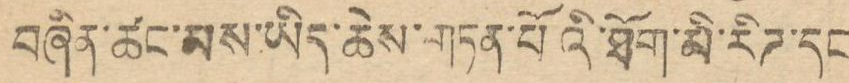བཞིན་ཚང་མས་ཡིད་ཆེས་གཏན་པོའི་ཐོག་མི་རིཊ་དང
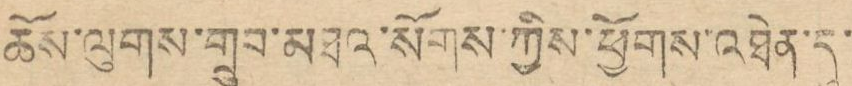ཆོས་ལུགས་གྲུབ་མཐའ་སོགས་ཀྱིས་ཕྱོགས་འཐེན་དུ་
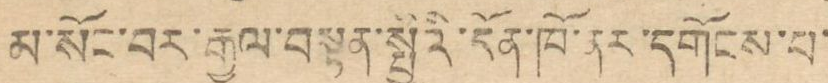མ་སོང་བར་རྒྱལ་བསྟན་སྤྱིའི་དོན་ཁོ་ནར་དགོངས་པ་
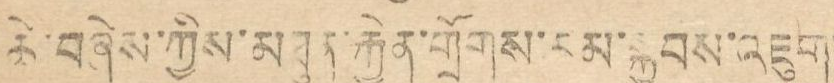ཆེ་བཞེས་ཀྱིས་མཐུན་རྐྱེན་གྲོགས་རམ་སྐྱབས་འཇུག་
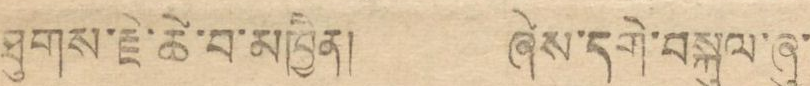ཐུགས་རྗེ་ཆེ་བ་མཁྱེན། ཞེས་དགེ་བསྐུལ་ཞུ་
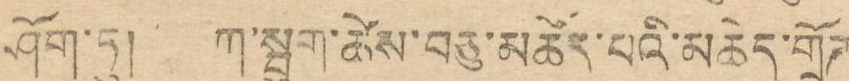ཤོག་ཏུ། ཀ་སྦུག་ཚེས་བཅུ་མཆོད་པའི་མཆེད་གྲོཊ
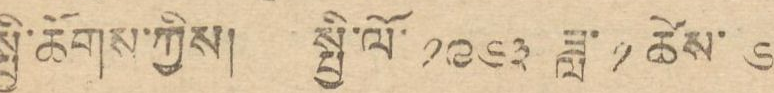སྤྱི་ཚོགས་ཀྱིས། སྤྱི་ལོ ༡༩༦༣ ཟླ་ ༡ ཚེས་ ༦
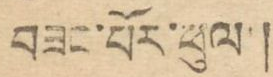བཟང་པོར་ཕུལ།
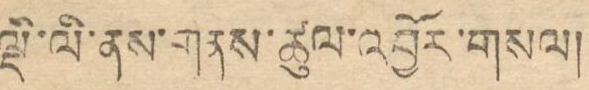ལྡི་ལི་ནས་གནས་ཚུལ་འབྱོར་གསལ།
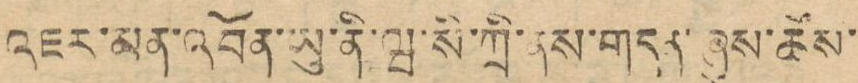འཇར་མན་འབོན་ཡུ་ནི་ལྦ་སི་ཀྲི་ནས་གདན་ཞུས་ཚོས་
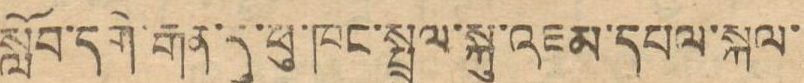སློབ་དགེ་རྒན་དུ་ཕུ་ཁང་སྤྲུལ་སྐུ་འཇམ་དཔལ་སྐལ་
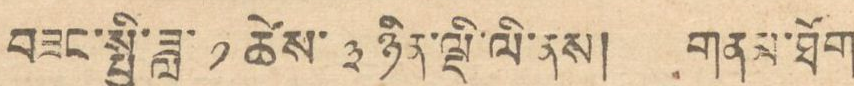བཟང་སྤྱི་ཟླ་ ༡ ཚེས་ ༣ ཉིན་ལྡི་ལི་ནས། གནམ་ཐོག
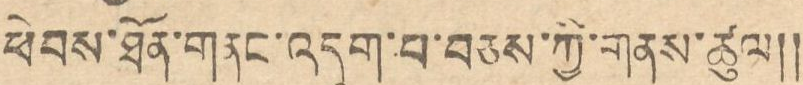ཕེབས་ཐོན་གནང་འདུག་པ་བཅས་ཀྱི་གནས་ཚུལ།།
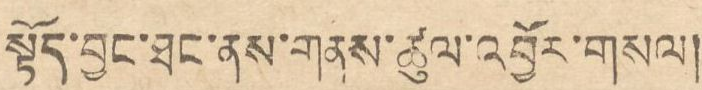སྟོད་བྱང་ཐང་ནས་གནས་ཚུལ་འབྱོར་གསལ།
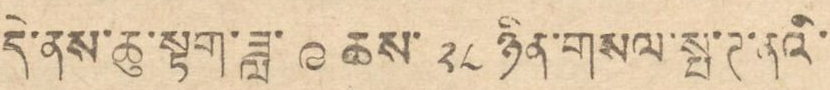དེ་ནས་ཆུ་སྟག་ཟླ་ ༩ ཚེས་ ༢༨ ཉིན་གསལ་སྤ་ཊ་ནའི་
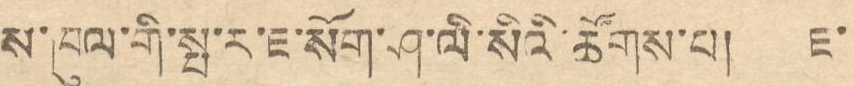ས་ཁུལ་གི་སྤ་ར་ཇ་སོག་ཤ་ལི་སིའི་ཚོགས་པ། ཇ་
